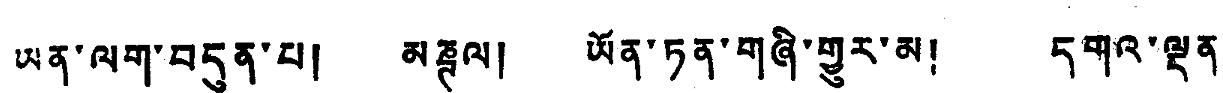ཡན་ལག་བདུན་པ། མཎྚལ། ཡོན་ཏན་གཞི་གྱུར་མ། དགའ་ལྡན་
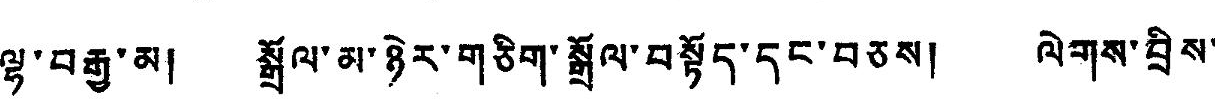ལྷ་བརྒྱ་མ། སྒྲོལ་མ་ཉེར་གཅིག་སྒྲོལ་བསྟོད་དང་བཅས། ལེགས་བྲིས་
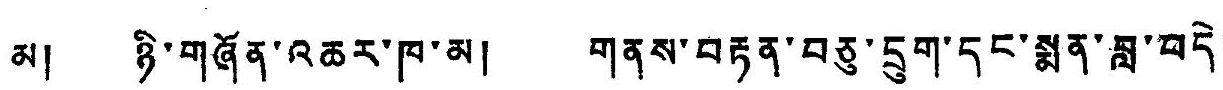མ། ཉི་གཞོན་འཆར་ཁ་མ། གནས་བརྟན་བཅུ་དྲུག་དང་སྨན་བླ་བདེ་
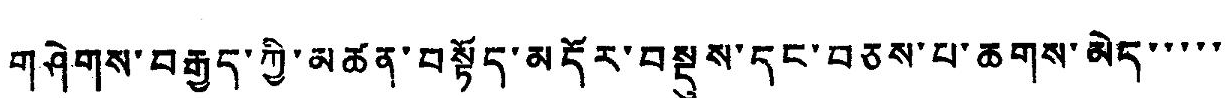གཤེགས་བརྒྱད་ཀྱི་མཚན་བསྟོད་མདོར་བསྡུས་དང་བཅས་པ་ཆགས་མེད་་་་་
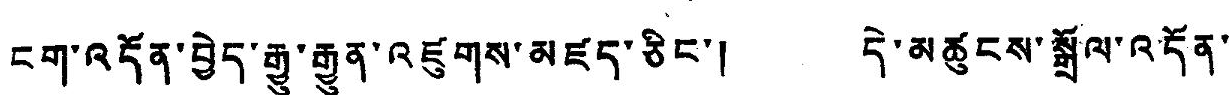ངག་འདོན་བྱེད་རྒྱུན་འཛུགས་མཛད་ཅིང་། དེ་མཚུངས་སྒྲོལ་འདོན་
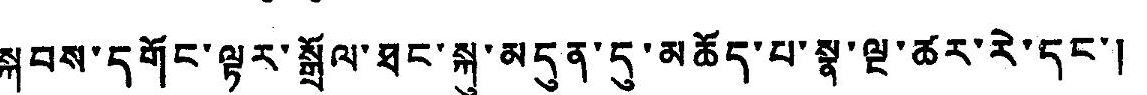སྐབས་དགོང་ལྟར་སྒྲོལ་ཐང་སྐུ་མདུན་དུ་མཆོད་པ་སྣ་ལྔ་ཚར་རེ་དང་།
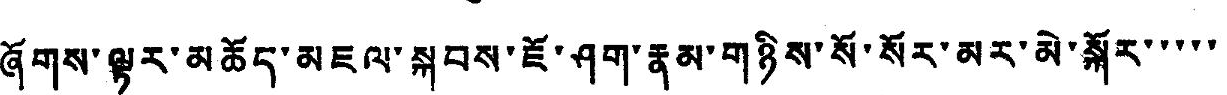ཞོགས་ལྟར་མཆོད་མཇལ་སྐབས་ཇོ་ཤག་རྣམ་གཉིས་སོ་སོར་མར་མེ་སྐོར་་་་་
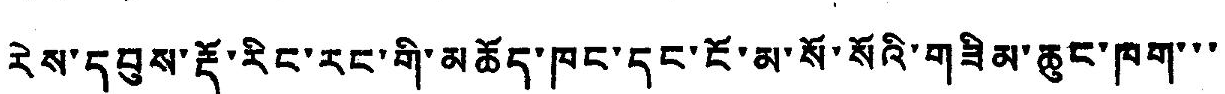རེས་དབུས་རྡོ་རིང་རང་གི་མཆོད་ཁང་དང་ངོ་མ་སོ་སོའི་གཟིམ་ཆུང་ཁག་་་
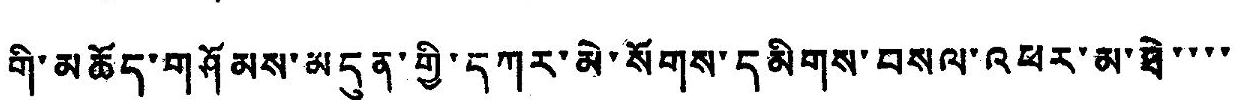གི་མཆོད་གཤོམས་མདུན་གྱི་དཀར་མེ་སོགས་དམིགས་བསལ་འཕར་མ་ཐེ་་་་
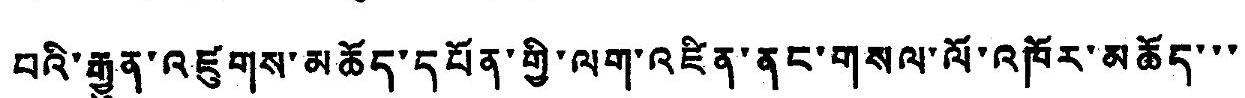བའི་རྒྱུན་འཛུགས་མཆོད་དཔོན་གྱི་ལག་འཛིན་ནང་གསལ་ལོ་འཁོར་མཆོད་་་
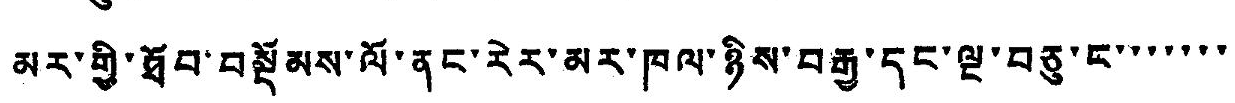མར་གྱི་ཐོབ་བསྡོམས་ལོ་ནང་རེར་མར་ཁལ་ཉིས་བརྒྱ་དང་ལྔ་བཅུ་ང་་་་་་་
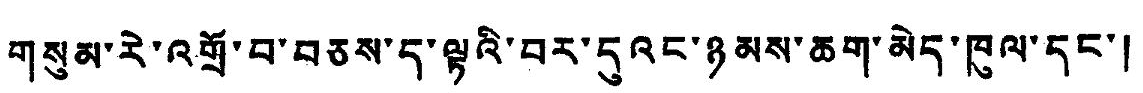གསུམ་རེ་འགྲོ་བ་བཅས་ད་ལྟའི་བར་དུའང་ཉམས་ཆག་མེད་ཁུལ་དང་།
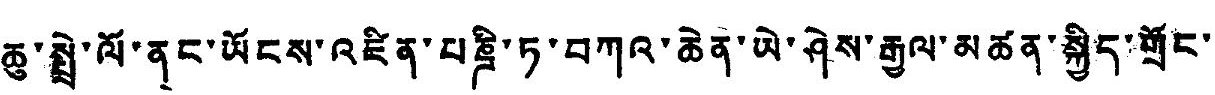ཆུ་སྤྲེ་ལོ་ནང་ཡོངས་འཛིན་པཎྜི་ཏ་བཀའ་ཆེན་ཡེ་ཤེས་རྒྱལ་མཚན་སྐྱིད་གྲོང་
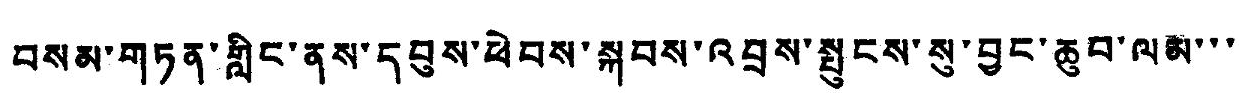བསམ་གཏན་གླིང་ནས་དབུས་ཕེབས་སྐབས་འབྲས་སྤུངས་སུ་བྱང་ཆུབ་ལམ་་་
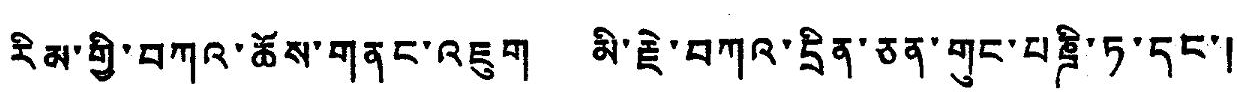རིམ་གྱི་བཀའ་ཆོས་གནང་འཇུག་མི་རྗེ་བཀའ་དྲིན་ཅན་གུང་པཎྜི་ཏ་དང་།
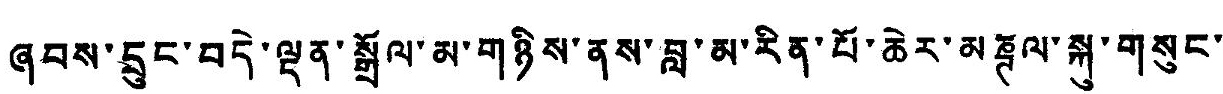ཞབས་དྲུང་བདེ་ལྡན་སྒྲོལ་མ་གཉིས་ནས་བླ་མ་རིན་པོ་ཆེར་མཎྚལ་སྐུ་གསུང་
